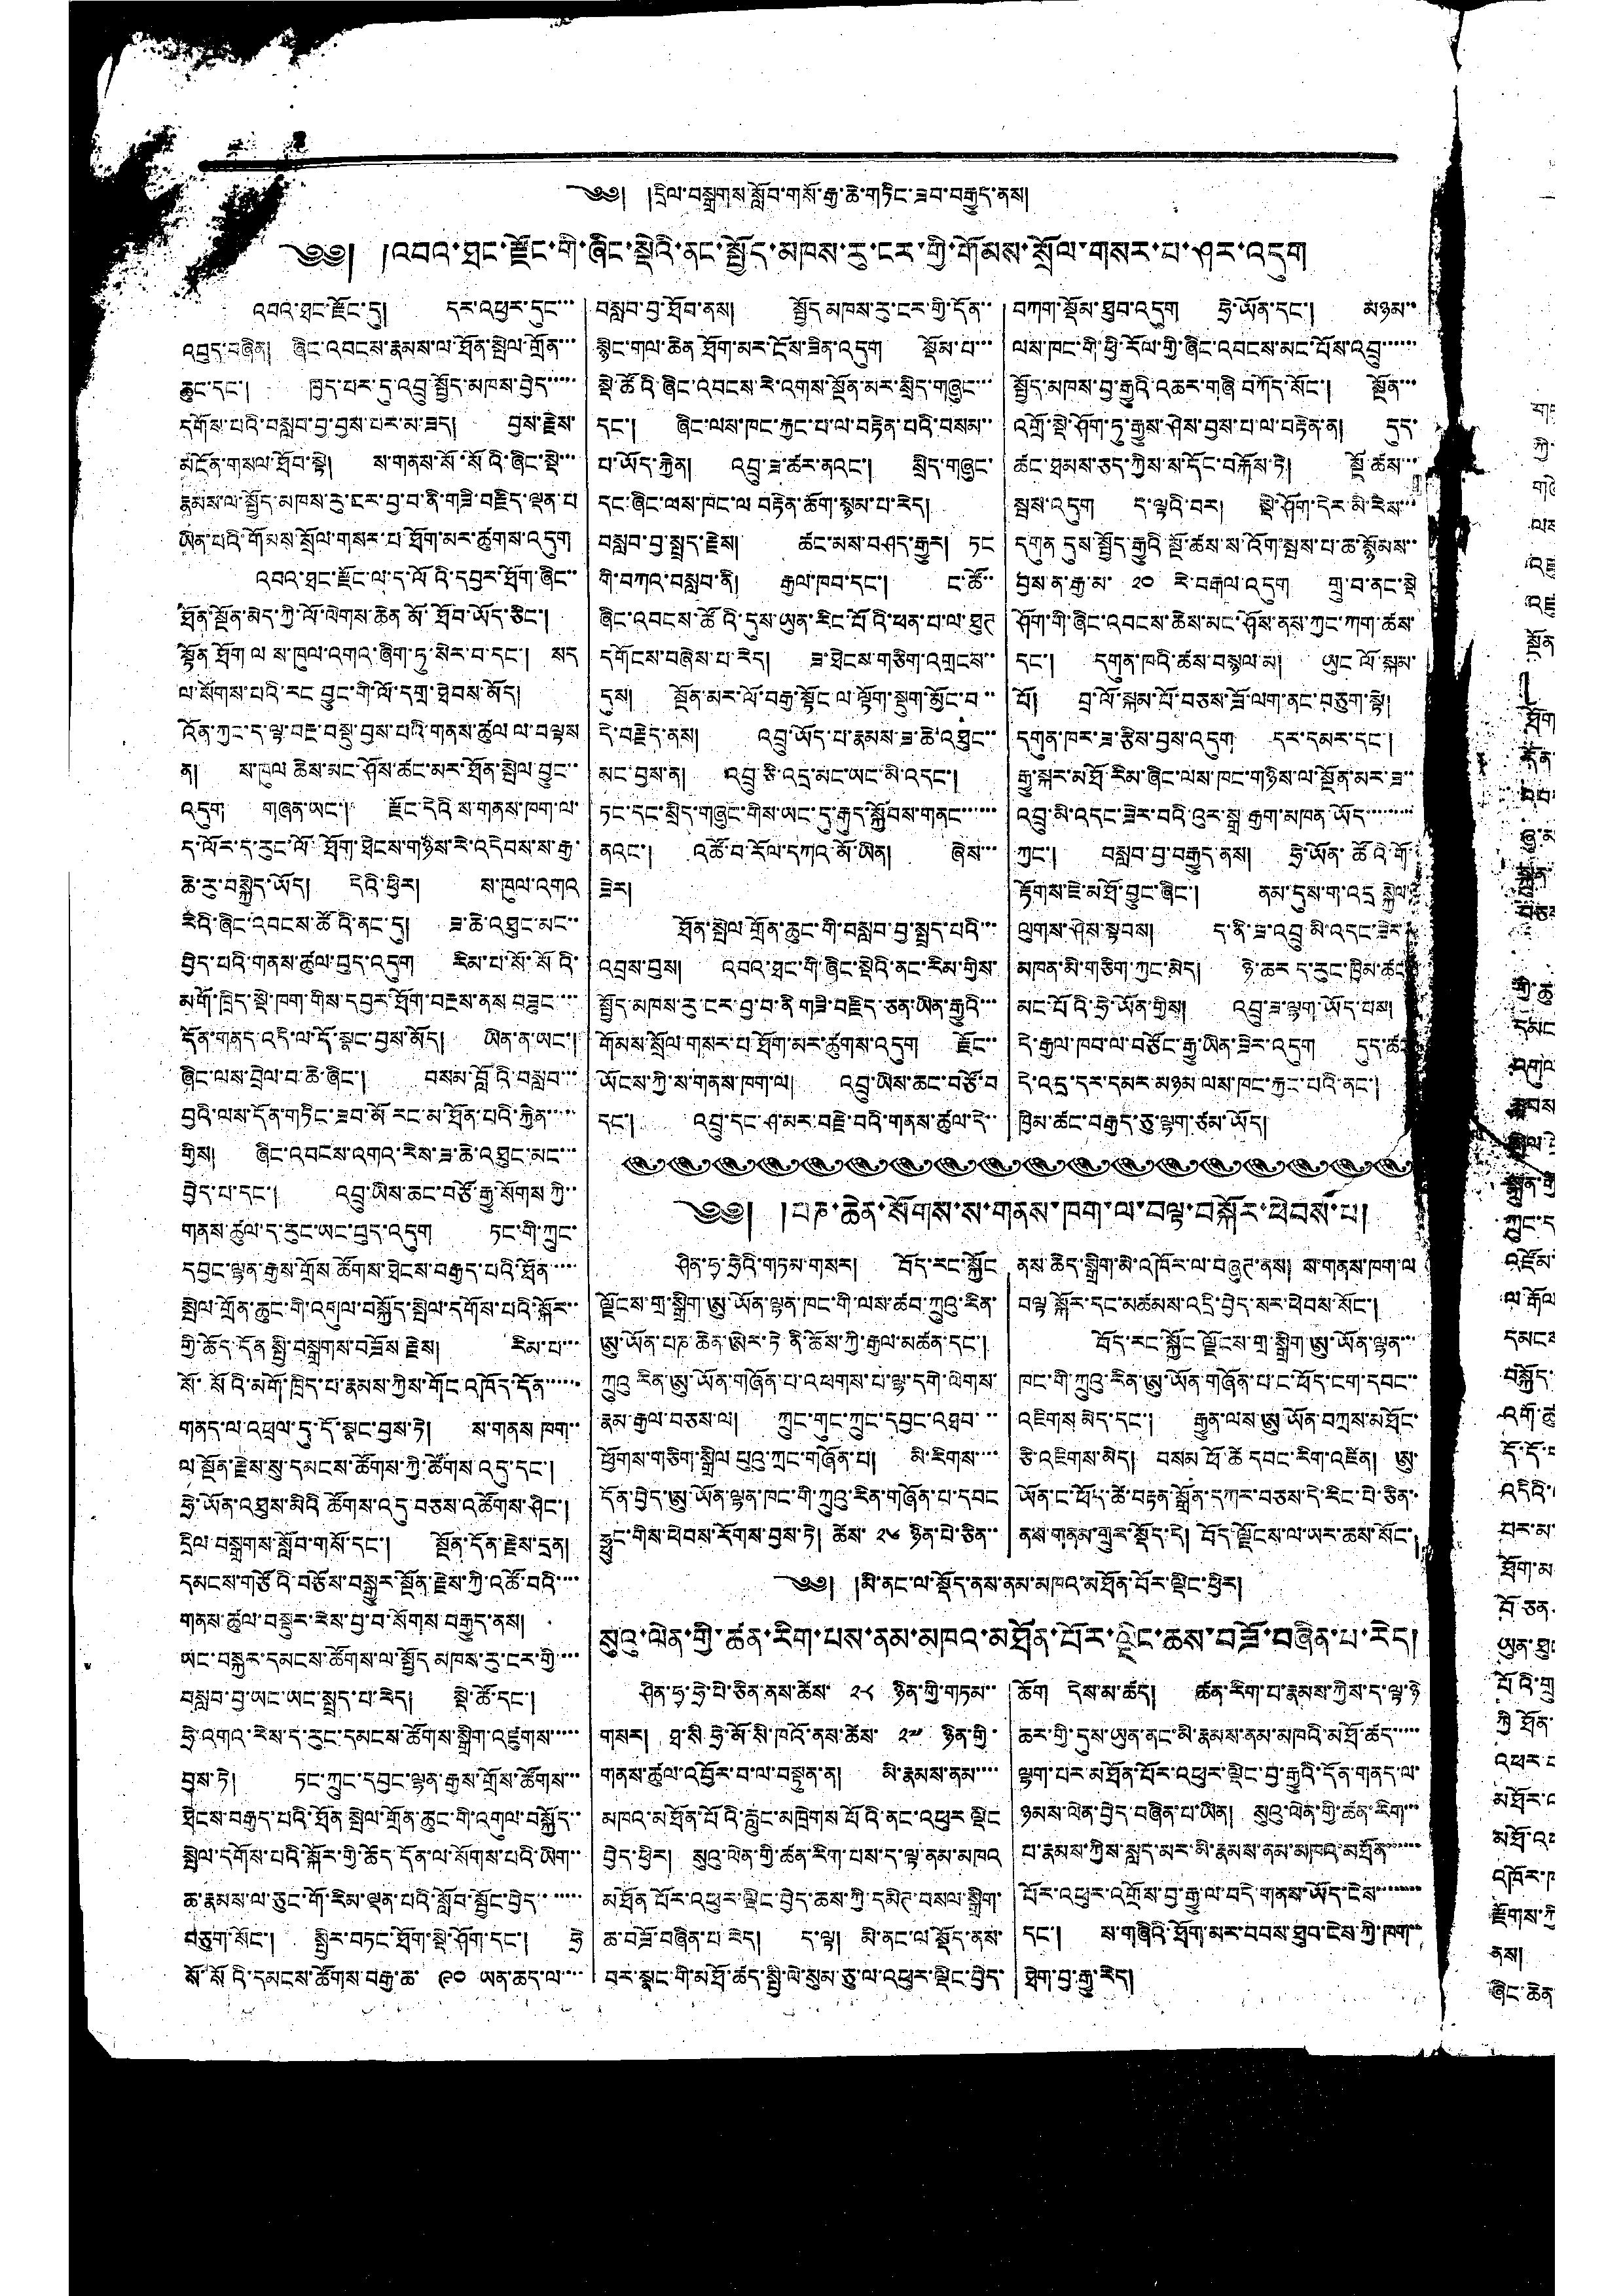2
༄༅། །དྲིལ་བསྒྲགས་སློབ་གསོ་རྒྱ་ཆེ་གཏིང་ཟབ་བརྒྱུད་ནས།
༄༅། །འབའ་ཐང་རྫོང་གི་ཞིང་སྡེའི་ནང་སྤྱོད་མཁས་རུ་ངར་གྱི་གོམས་སྲོལ་གསར་པ་ཤར་འདུག
འབའ་ཐང་རྫོང་དུ། དར་འཕྱར་དུང་་་
འབུད་བཞིན། ཞིང་འབངས་རྣམས་ལ་ཐོན་སྤེལ་གྲོན་་་
ཆུང་དང་། ཁྱད་པར་དུ་འབྲུ་སྤྱོད་མཁས་བྱེད་་་་་
དགོས་པའི་བསླབ་བྱ་བྱས་པར་མ་ཟད། བྱས་རྗེས་
མངོན་གསལ་ཐོབ་སྟེ། ས་གནས་སོ་སོའི་ཞིང་སྡེ་་་
རྣམས་ལ་སྤྱོད་མཁས་རུ་ངར་བྱ་བ་ནི་གཟི་བརྗིད་ལྡན་པ
ཡིན་པའི་གོམས་སྲོལ་གསར་པ་ཐོག་མར་ཚུགས་འདུག
འབའ་ཐང་རྫོང་ལ་ད་ལོའི་དབྱར་ཐོག་ཞིང་་
ཐོན་སྔོན་མེད་ཀྱི་ལོ་ལེགས་ཆེན མོ་ཐོབ་ཡོད་ཅིང་།
སྟོན ཐོག ལ ས་ཁུལ་འགའ་ཞིག་ཏུ་སེར་བ་དང་། སད
ལ་སོགས་པའི་རང བྱུང་གི་ལོ་དགྲ་ཐེབས་མོད།
འོན་ཀྱང་ད་ལྟ་བརྔ་བསྡུ་བྱས་པའི་གནས་ཚུལ ལ་བལྟས
ན། ས་ཁུལ ཆེས་མང་ཤོས་ཚང་མར་ཐོན་སྤེལ བྱུང་་
འདུག གཞན་ཡང་། རྫོང་དེའི ས་གནས་ཁག་ལ་
ད་ལོར་ད་རུང་ལོ་ཐོག་ཐེངས་གཉིས་རེ་འདེབས་ས་རྒྱ་
ཆེ་རུ་བསྐྱེད་ཡོད། དེའི་ཕྱིར། ས་ཁུལ་འགའ
རེའི་ཞིང་འབངས་ཚོའི་ནང་དུ། ཟ་ཆེ་འཐུང་མང་་
བྱེད་པའི་གནས་ཚུལ་བུད་འདུག རིམ་པ་སོ་སོའི་
མགོ་ཁྲིད་སྡེ་ཁག་གིས་དབྱར་ཐོག་བརྔས་ནས བཟུང་་་་
དོན་གནད་འདི་ལ་དོ་སྣང་བྱས་མོད། ཡིན་ན་ཡང་།
ཞིང་ལས་བྲེལ་བ་ཆེ་ཞིང་། བསམ་བློའི་བསླབ་་་
བྱའི་ལས་དོན་གཏིང་ཟབ་མོ རང་མ་ཐོན་པའི་རྐྱེན་་་་་
གྱིས་ ཞིང་འབངས་འགའ་རེས་ཟ་ཆེ་འཐུང་མང་་་
བྱེད་པ་དང་། འབྲུ་ཡིས་ཆང་བཙོ་རྒྱུ་སོགས ཀྱི་་
གནས་ཚུལ་ད་རུང་ཡང་བུད་འདུག ཏང་གི་ཀྲུང་
དབྱང་ལྷན་རྒྱས་གྲོས ཚོགས་ཐེངས་བརྒྱད་པའི་ཐོན་་་་་
སྤེལ་གྲོན་ཆུང་གི་འགུལ་བསྐྱོད་སྤེལ་དགོས་པའི་སྐོར་་
གྱི་ཆོད་དོན སྤྱི་བསྒྲགས་བཟོས རྗེས། རིམ་པ་་་
སོ་སོའི་མགོ་ཁྲིད་པ་རྣམས་ཀྱིས་གོང་འཁོད་དོན་་་་་་
གནད་ལ་འཕྲལ་དུ་དོ་སྣང་བྱས་ཏེ། ས་གནས ཁག་་
ལ་སྔོན་རྗེས་སུ་དམངས་ཚོགས་ཀྱི་ཚོགས་འདུ་དང་།
ཧྲེ་ཡོན་འཐུས་མིའི ཚོགས་འདུ་བཅས་འཚོགས་ཤིང་།
དྲིལ བསྒྲགས་སློབ་གསོ་དང་། སྔོན་དོན་རྗེས་དྲན།
དམངས་གཙོའི་བཅོས་བསྒྱུར་སྔོན་རྗེས་ཀྱི་འཚོ་བའི་་་་
གནས་ཚུལ་བསྡུར་རེས་བྱ་བ་སོགས་བརྒྱུད་ནས།
ཡང་བསྐྱར་དམངས་ཚོགས་ལ་སྤྱོད མཁས་རུ་ངར་གྱི་་་་
བསླབ་བྱ་ཡང་ཡང་སྤྲད་པ་རེད། སྡེ་ཚོ་དང་།
ཧྲེ་འགའ་རེས་ད་རུང་དམངས་ཚོགས་སྒྲིག་འཛུགས་་་་་
བྱས་ཏེ། ཏང་ཀྲུང་དབྱང་ལྷན་རྒྱས་གྲོས་ཚོགས་་་
ཐེངས་བརྒྱད་པའི་ཐོན་སྤེལ་གྲོན་ཆུང་གི་འགུལ་བསྐྱོད་་
སྤེལ་དགོས་པའི་སྐོར་གྱི་ཆོད དོན་ལ་སོགས་པའི་ཡིག་་
ཆ་རྣམས་ལ་ཅུང་གོ་རིམ་ལྡན་པའི་སློབ་སྦྱོང་བྱེད་་་་་་་
བཅུག་སོང་། སྤྱིར་བཏང་ཐོག་སྡེ་ཤོག་དང་། ཧྲེ
སོ་སོའི་དམངས་ཚོགས་བརྒྱ་ཆ་ ༩༠ ཡན་ཆད་ལ་་་་
བསླབ་བྱ་ཐོབ་ནས། སྤྱོད མཁས་རུ་ངར་གྱི་དོན་་
སྙིང་གལ་ཆེན ཐོག་མར་ངོས་ཟིན་འདུག སྡོམ་པ་་་
སྡེ་ཚོའི་ཞིང་འབངས་རེ་འགས་སྔོན་མར་སྲིད་གཞུང་་་
དང་། ཞིང་ལས་ཁང་རྐྱང་པ་ལ་བརྟེན་པའི་བསམ་་
པ་ཡོད་རྐྱེན། འབྲུ་ཟ་ཚར་ནའང་། སྲིད་གཞུང་
དང་ཞིང་ལས་ཁང་ལ བརྟེན་ཆོག་སྙམ་པ་རེད།
བསླབ་བྱ་སྤྲད་རྗེས། ཚང་མས་བཤད་རྒྱུར། ཏང
གི་བཀའ་བསླབ་ནི། རྒྱལ་ཁབ་དང་། ང་ཚོ་་
ཞིང་འབངས་ཚོའི་དུས་ཡུན་རིང་པོའི་ཕན་པ་ལ་ཐུཊ
དགོངས་བཞེས་པ་རེད། ཟ་ཐེངས་གཅིག་འགྲངས་་
དུས། སྔོན་མར་ལོ་བརྒྱ་སྟོང ལ་ལྟོག་སྡུག་མྱོང་བ་་
དེ་བརྗེད་ནས། འབྲུ་ཡོད་པ་རྣམས་ཟ་ཆེ་འཐུང་་
མང་བྱས་ན། འབྲུ་ཅི་འདྲ་མང་ཡང་མི་འདང་།
ཏང་དང་སྲིད་གཞུང་གིས་ཡང་དུ་རྒུད་སྐྱོབས་གནང་་་་་་
ནའང་། འཚོ་བ་རོལ་དཀའ་མོ་ཡིན། ཞེས་་་
ཟེར།
ཐོན་སྤེལ་གྲོན་ཆུང་གི་བསླབ་བྱ་སྤྲད་པའི་་་
འབྲས་བུས། འབའ་ཐང་གི་ཞིང་སྡེའི་ནང་རིམ་གྱིས་
སྤྱོད་མཁས་རུ་ངར་བྱ་བ་ནི གཟི་བརྗིད་ཅན་ཡིན་རྒྱུའི་་་
གོམས་སྲོལ་གསར་པ ཐོག་མར་ཚུགས་འདུག རྗོང་་
ཡོངས་ཀྱི་ས་གནས་ཁག་ལ། འབྲུ་ཡིས་ཆང་བཙོ་བ
དང་། འབྲུ་དང་ཤ་མར་བརྗེ་བའི་གནས་ཚུལ་དེ་་
བཀག་སྡོམ་ཐུབ་འདུག ཧྲེ་ཡོན་དང་། མཉམ་་
ལས་ཁང་གི་ཕྱི་རོལ་གྱི་ཞིང་འབངས་མང་པོས་འབྲུ་་་་་་
སྤྱོད་མཁས་བྱ་རྒྱུའི་འཆར་གཞི བཀོད་སོང་། སྔོན་་་
འགྲོ་སྡེ་ཤོག་ཏུ་རྒྱུས་ཤེས་བྱས་པ་ལ་བརྟེན་ན། དུད་
ཚང་ཐམས་ཅད་ཀྱིས་ས་དོང་བརྐོས་ཏེ། སྔོ་ཚས་་་
སྦས་འདུག ད་ལྟའི་བར། སྡེ་ཤོག་དེར་མི་རེས་་་
དགུན དུས་སྤྱོད་རྒྱུའི་སྔོ་ཚས་ས་འོག་སྦས་པ་ཆ་སྙོམས་་
བྱས་ན་རྒྱ་མ་ ༢༠ རེ་བརྒལ་འདུག གྲུ་བ་ནང་སྡེ
ཤོག་གི་ཞིང་འབངས་ཆེས་མང་ཤོས་ནས་ཀྱང་ཀག་ཚས་
དང་། དགུན་ཁའི་ཚས་བསྙལ་མ། ཡུང ལོ་སྐམ་
པོ། བྲ་ལོ་སྐམ་པོ་བཅས་ཟོ་ལག་ནང་བཅུག་སྟེ།
དགུན་ཁར་ཟ་རྩིས་བྱས་འདུག དར་དམར་དང་།
རྒྱུ་སྐར་མཐོ་རིམ་ཞིང་ལས་ཁང་གཉིས་ལ་སྔོན་མར་ཟ་་
འབྲུ་མི་འདང་ཟེར་བའི་འུར་སྒྲ རྒྱག་མཁན་ཡོད་་་་་་་་་
ཀྱང་། བསླབ་བྱ་བརྒྱུད་ནས། ཧྲེ་ཡོན་ཚོའི་གོ་
རྟོགས་ཇེ་མཐོ་བྱུང་ཞིང་། ནམ་དུས་ག་འདྲ་སྐྱེལ་་
ལུགས་ཤེས་སྟབས། ད་ནི་ཟ་འབྲུ་མི་འདང་ཟེར་་
མཁན་མི་གཅིག་ཀྱང་མེད། ཉེ་ཆར ད་རུང་ཁྱིམ་ཚང
མང་པོའི་ཧྲེ་ཡོན་གྱིས། འབྲུ་ཟ་ལྷག་ཡོད་པས།
དེ་རྒྱལ་ཁབ་ལ་བཙོང་རྒྱུ་ཡིན་ཟེར་འདུག དུད་ཚང་
དེ་འདྲ་དར་དམར་མཉམ་ལས་ཁང་རྐྱང་པའི་ནང་།
ཁྱིམ་ཚང་བརྒྱད་ཅུ་ལྷག་ཙམ་ཡོད།
༄༅། །པཎ་ཆེན་སོགས་ས་གནས་ཁག་ལ་བལྟ་བསྐོར་ཕེབས་པ།
ཤིན་ཧྭ་ཧྲེའི་གཏམ་གསར། བོད་རང་སྐྱོང
ལྗོངས་གྲ་སྒྲིག་ཨུ་ཡོན་ལྷན་ཁང་གི་ལས་ཚབ་ཀྲུའུ་རིན་
ཨུ་ཡོན་པཎ་ཆེན་ཨེར་ཏེ ནི་ཆོས་ཀྱི་རྒྱལ་མཚན་དང་།
ཀྲུའུ རིན་ཨུ་ཡོན་གཞོན་པ་འཕགས་པ་ལྷ་དགེ་ལེགས་
རྣམ་རྒྱལ་བཅས་ལ། ཀྲུང་གུང་ཀྲུང་དབྱང་འཐབ་་་
ཕྱོགས་གཅིག་སྒྲིལ པུའུ་ཀྲང་གཞོན་པ། མི་རིགས་་་་
དོན་བྱེད་ཨུ་ཡོན་ལྷན་ཁང་གི་ཀྲུའུ་རིན་གཞོན་པ་དབང
ཧྥུང་གིས་ཕེབས་རོགས་བྱས་ཏེ། ཚེས་ ༢༦ ཉིན་པེ་ཅིན་་
ནས་ཆེད་སྒྲིག་མེ་འཁོར་ལ་བཞུཊ་ནས། ས་གནས་ཁག་ལ
བལྟ ལྐོར་དང་མཚམས་འདྲི་བྱེད་སར་ཕེབས་སོང་།
བོད་རང་སྐྱོང ལྗོངས་གྲ་སྒྲིག་ཨུ་ཡོན་ལྷན་་་
ཁང་གི་ཀྲུའུ་རིན་ཨུ་ཡོན་གཞོན་པ་ང་ཕོད་ངག་དབང་་
འཇིགས་མེད་དང་། རྒྱུན་ལས་ཨུ་ཡོན་བཀྲས་མཐོང་
ཅི་འཇིགས་མེད། བསམ ཕོ་ཚེ དབང་རིག་འཛིན། ཨུ་
ཡོན་ང་ཕོད་ཚེ་བརྟན་སྒྲོན་དཀར་བཅས་དེ་རིང་པེ་ཅིན་་
ནས་གནམ་གྲུར་སྡོད་དེ། བོད་ལྗོངས་ལ་ཡར་ཆས་སོང་།
༄༅། །མི་ནང་ལ་སྡོད་ནས་ནམ་མཁའ་མཐོན་པོར་ལྡིང་ཕྱིར།
སུའུ་ལེན་གྱི་ཚན་རིག་པས་ནམ་མཁའ་མཐོན་པིར་ལྡིང་ཆས་བཟོ་བཞིན་པ་རེད།
ཤིན་ཧྭ་ཧྲེ་པེ་ཅིན་ནས་ཚེས་ ༢༨ ཉིན་གྱི་གཏམ་་
གསར། ཐ་སི ཧྲེ་མོ་སི་ཁའོ་ནས་ཚེས་ ༢༧ ཉིན་གྱི་
གནས་ཚུལ་འབྱོར་བ་ལ་བསྟུན་ན། མི་རྣམས་ནམ་་་་
མཁའ་མཐོན་པོའི་རླུང་མཁྲེགས པོའི་ནང་འཕུར་ལྡིང
བྱེད་ཕྱིར། སུའུ་ལེན་གྱི་ཚན་རིག་པས་ད་ལྟ་ནམ་མཁའ
མཐོན པོར་འཕུར་ལྡིང་བྱེད་ཆས་ཀྱི་དམིཊ་བསལ་སྒྲིག་
ཆ་བཟོ་བཞིན་པ རེད། ད་ལྟ། མི་ནང་ལ སྡོད་ནས་
བར་སྣང་གི་མཐོ་ཚད་སྤྱི་ལེ་སུམ་ཅུ་ལ་འཕུར་ལྡིང་བྱེད་
ཆོག དེས་མ་ཚད། ཚན་རིག་པ་རྣམས་ཀྱིས་ད་ལྟ་ཉེ
ཆར་གྱི་དུས་ཡུན་ནང་མི་རྣམས་ནམ་མཁའི་མཐོ་ཚད་་་་་
ལྷག་པར་མཐོན་པོར་འཕུར་ལྡིང་བྱ་རྒྱུའི་དོན་གནད་ལ་
ཉམས་ལེན་བྱེད་བཞིན་པ་ཡིན། སུའུ་ལེན་གྱི་ཚན་རིག་་་
པ་རྣམས་ཀྱིས་སླད་མར་མི་རྣམས་ནམ་མཁའ་མཐོན་་་་་་
པོར་འཕུར་འགྲོས་བྱ་རྒྱུ་ལ་བདེ་གནས་ཡོད་ངེས་་་་་་་་
དང་། ས་གཞིའི་ཐོག་མར་བབས་ཐུབ་ངེས་ཀྱི་ཁག་་
ཐེག་བྱ་རྒྱུ་རེད།
